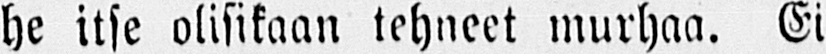he itse olisikaan tehneet murhaa. Ei
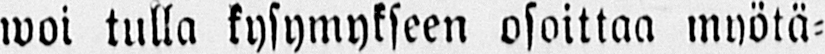woi tulla kysymykseen osoittaa myötä-
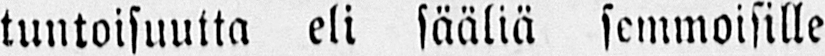tuntoisuutta eli sääliä semmoisille
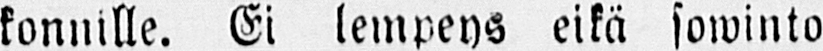konnille. Ei lempeys eikä sowinto
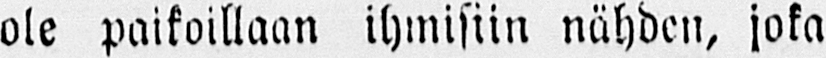ole paikoillaan ihmisiin nähden, joka
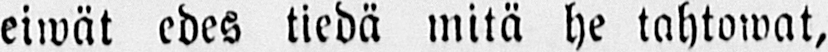eiwät edes tiedä mitä he tahtowat,
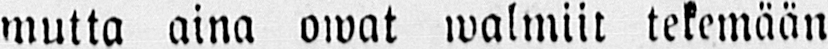mutta aina owat walmiit tekemään
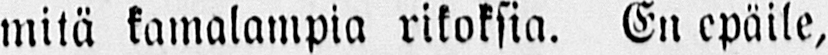mitä kamalampia rikoksia. En epäile,
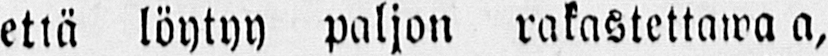että löytyy paljon rakastettawa a,
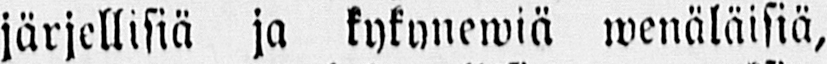järjellisiä ja kykynewiä wenäläisiä,
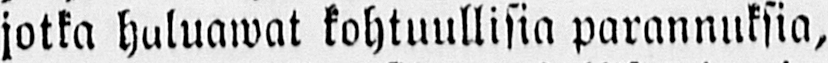jotka haluawat kohtuullisia parannuksia,
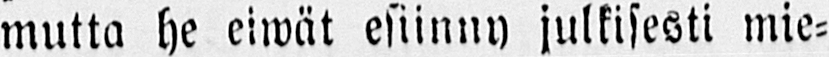mutta he eiwät esiinny julkisesti mie-
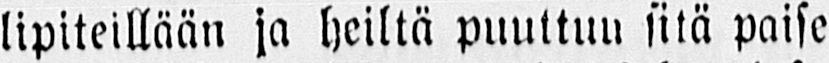lipiteillään ja heiltä puuttuu sitä paise
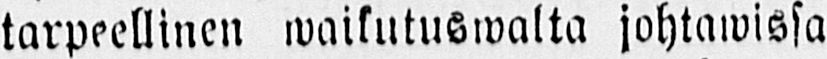tarpeellinen waikutuswalta johtawissa
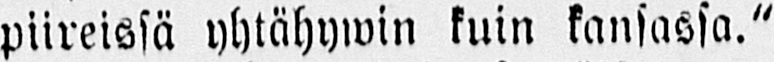piireissä yhtähywin kuin kansassa."
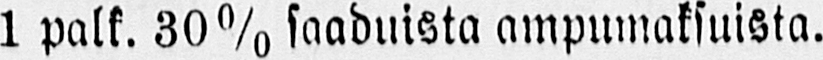1 palk. 30% saaduista ampumaksuista.
